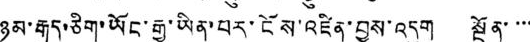ཉམ་རྒུད་ཅིག་ཡོང་རྒྱུ་ཡིན་པར་ངོས་འཛིན་བྱས་འདུག སྔོན་་་་
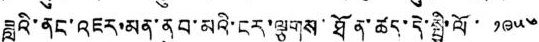ཟླའི་ནང་འཇར་མན་ནུབ་མའི་ངར་ལྕགས་ཐོན་ཚད་དེ་སྤྱི་ལོ་ ༡༩༥༦
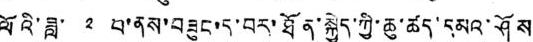ལོའི་ཟླ་ ༢ པ་ནས་བཟུང་ད་བར་ཐོན་སྐྱེད་ཀྱི་ཆུ་ཚད་དམའ་ཤོས
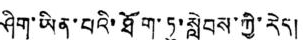ཤིག་ཡིན་པའི་ཐོག་ཏུ་སླེབས་ཀྱི་རེད།
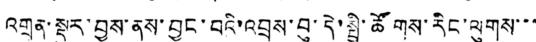འགྲན་སྡུར་བྱས་ནས་བྱུང་བའི་འབྲས་བུ་དེ་སྤྱི་ཚོགས་རིང་ལུགས་་་
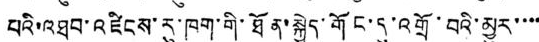པའི་འཐབ་འཛིངས་རུ་ཁག་གི་ཐོན་སྐྱེད་གོང་དུ་འགྲོ་བའི་མྱུར་་་་
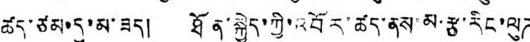ཚད་ཙམ་དུ་མ་ཟད། ཐོན་སྐྱེད་ཀྱི་འབོར་ཚད་ནས་མ་རྩ་རིང་ལུཌ
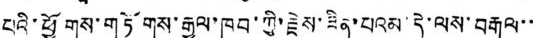པའི་ཕྱོགས་གཏོགས་རྒྱལ་ཁབ་ཀྱི་རྗེས་ཟིན་པའམ་དེ་ལས་བརྒལ་་
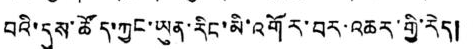བའི་དུས་ཚོད་ཀྱང་ཡུན་རིང་མི་འགོར་བར་འཆར་གྱི་རེད།
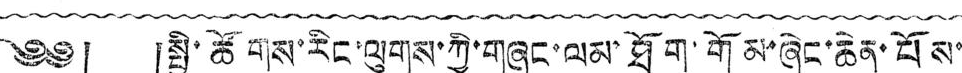༄༅། །སྤྱི་ཚོགས་རིང་ལུགས་ཀྱི་གཞུང་ལམ་ཐོག་གོམ་ཞེང་ཆེན་པོས་
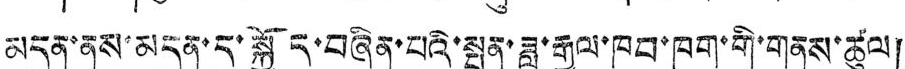མདུན་ནས་མདུན་དུ་སྐྱོད་བཞིན་པའི་སྤུན་ཟླ་རྒྱལ་ཁབ་ཁག་གི་གནས་ཚུལ།
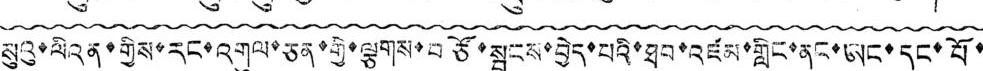སུའུ་ལིའན་གྱིས་རང་འགུལ་ཅན་གྱི་ལྕགས་བཙོ་སྦྱངས་བྱེད་པའི་ཐབ་འཛམ་གླིང་ནང་ཨང་དང་པོ་
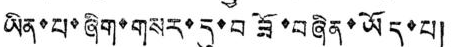ཡིན་པ་ཞིག་གསར་དུ་བཟོ་བཞིན་ཡོད་པ།
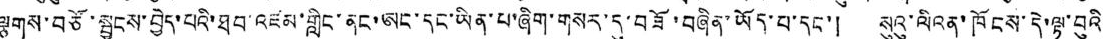ལྕགས་བཙོ་སྦྱངས་བྱེད་པའི་ཐབ་འཛམ་གླིང་ནང་ཨང་དང་ཡིན་པ་ཞིག་གསར་དུ་བཟོ་བཞིན་ཡོད་པ་དང་། སུའུ་ལིའན་ཁོངས་དེ་ལྟ་བུའི
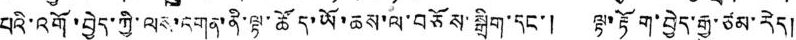པའི་འགོ་བྱེད་ཀྱི་ལས་འགན་ནི་ལྟ་ཚོད་ཡོ་ཆས་ལ་བཅོས་སྒྲིག་དང་། ལྟ་རྟོག་བྱེད་རྒྱུ་ཙམ་རེད།
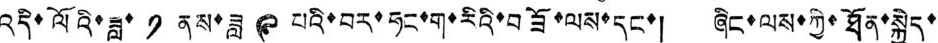འདི་ལོའི་ཟླ་ ༡ ནས་ཟླ ༩ པའི་བར་ཧང་ག་རིའི་བཟོ་ལས་དང་། ཞིང་ལས་ཀྱི་ཐོན་སྐྱེད་
